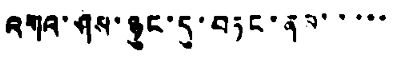འགའ་ཤས་ཉུང་དུ་བཏང་ནས་་་་་
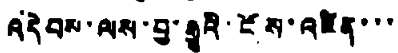འདེབས་ལས་བྱ་རྒྱུའི་ངོས་འཛིན་་་
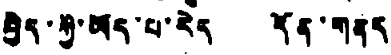བྱེད་ཀྱི་ཡོད་པ་རེད དོན་གནད
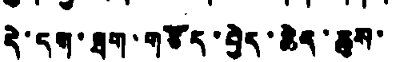དེ་དག་ཐག་གཅོད་བྱེད་ཆེད་ཆུས་
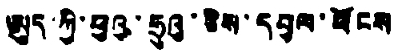ཨུད་ཀྱི་ཕུའུ་ཧྲུའུ་ཅིས་དབུལ་ཕོངས
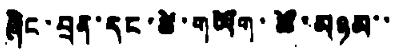ཞིང་བྲན་དང་ཚེ་གཡོག་ཚོ་མཉམ་་
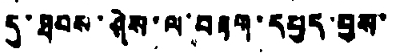དུ་ཐབས་ཤེས་ལ་བརྟག་དཔྱད་བྱས་
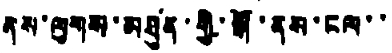ནས་ལུགས་མཐུན་གྱི་སྒོ་ནས་ངལ་་
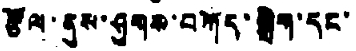རྩོལ་ནུས་ཤུགས་བཀོད་སྒྲིག་དང་
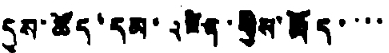དུས་ཚོད་དམ་འཛིན་གྱིས་རྨོད་་་་
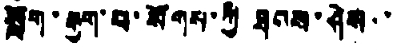སློག་རྒྱག་པ་སོགས་ཀྱི་ཐབས་ཤེས་་
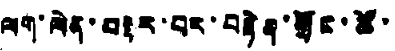ལག་ལེན་བསྟར་བར་བརྟེན་གྲོང་ཚོ་
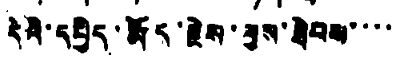དེའི་དཔྱིད་རྨོད་རྗེས་ལུས་ཐེབས་་་་
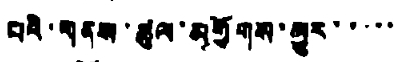པའི་གནས་ཚུལ་མགྱོགས་མྱུར་་་་་
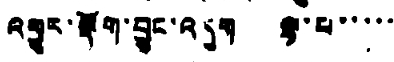འགྱུར་ལྡོག་བྱུང་འདུག ལྟ་པ་་་་་
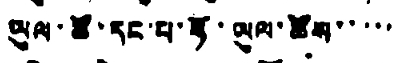ཡུལ་ཚོ་དང་པ་ཧོ་ཡུལ་ཚོས་་་་་
